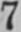7
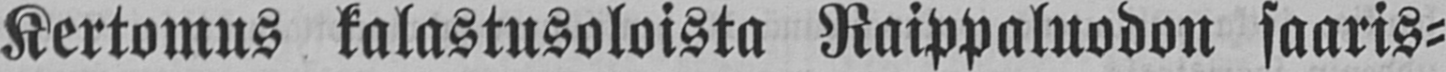Kertomus kalastusoloista Raippaluodon saaris-
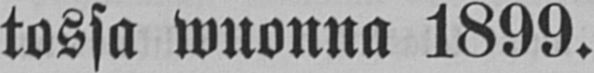tossa wuonna 1899.
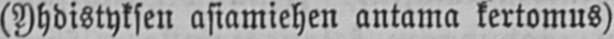(Yhdistyksen asiamiehen antama kertomus).
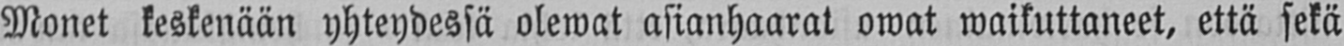Monet keskenään yhteydessä olewat asianhaarat owat waikuttaneet, että sekä
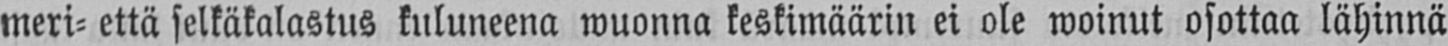meri- että selkäkalastus kuluneena wuonna keskimäärin ei ole woinut osottaa lähinnä
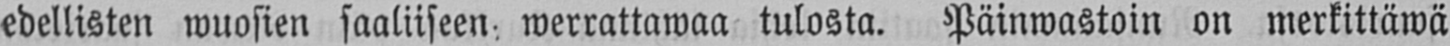edellisten wuosien saaliiseen werrattawaa tulosta. Päinwastoin on merkittäwä
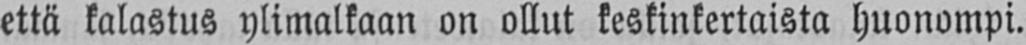että kalastus ylimalkaan on ollut keskinkertaista huonompi.
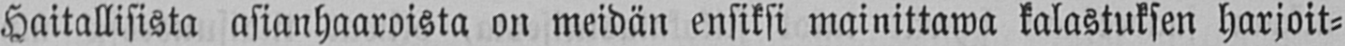Haitallisista asianhaaroista on meidän ensiksi mainittawa kalastuksen harjoit-
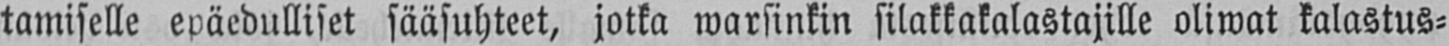tamiselle epäedulliset sääsuhteet, jotka warsinkin silakkakalastajille oliwat kalastus-
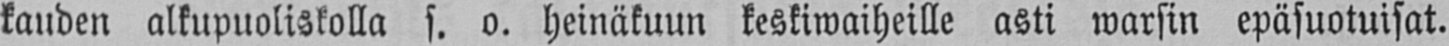kauden alkupuoliskolla s. o. heinäkuun keskiwaiheille asti warsin epäsuotuisat.
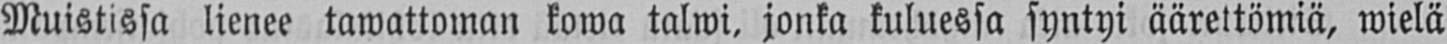Muistissa lienee tawattoman kowa talwi, jonka kuluessa syntyi äärettömiä, wielä
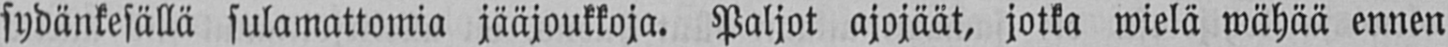sydänkesällä sulamattomia jääjoukkoja. Paljot ajojäät, jotka wielä wähää ennen
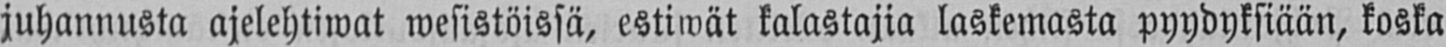juhannusta ajelehtiwat wesistöissä, estiwät kalastajia laskemasta pyydyksiään, koska
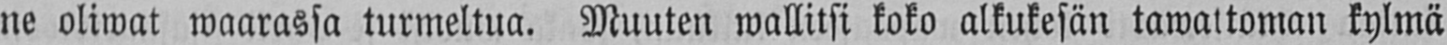ne oliwat waarassa turmeltua. Muuten wallitsi koko alkukesän tawattoman kylmä
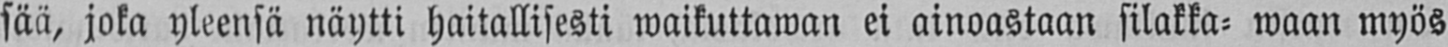sää, joka yleensä näytti haitallisesti waikuttawan ei ainoastaan silakka- waan myös
